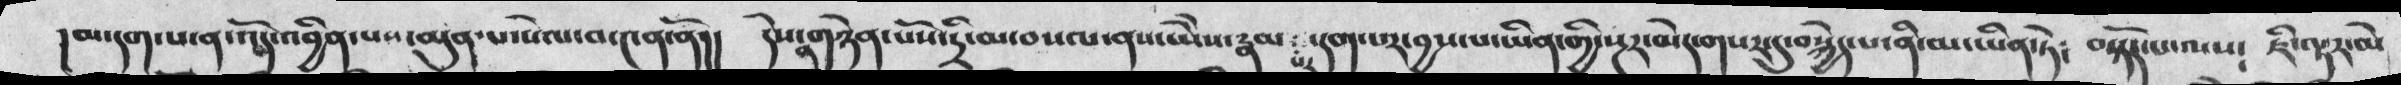།མ་དག་པ་ན་འོད་འབྱིན་པས་མུན་པ་སེལ་བ་༤ན་ནོ།།  དེས་ན་གཉེན་པོས་དྲི་མ་བསལ་ནས་ཡེེས་རྣམ་པར་དག་པར་བྱས་པ་ཡིན་གྱི་སྔར་མེད་གསར་དུ་བསྐྱེད་པ་ནི་མ་ཡིན་ཏེ༴  བསྟོད་པ་ལ༴    ཇི་ལྟར་མེ
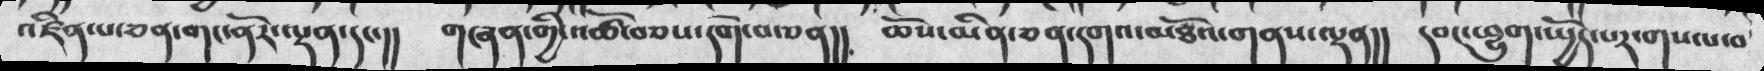འཛིན་པ་ཅན་གང་ནོར་ལྡན་དང་།། གཞན་གྱི་འཚོ་བཅས་དགེ་བ་ཅན།། ཆོས་མིན་ཅན་དགའ་མཐོའ་གནས་ལྡན།། དབང་ཕྱུག་སྤྱོད་པར་གསལ་བ
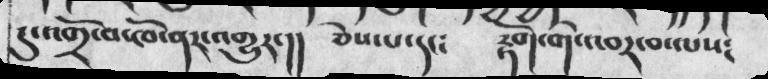དུ་འགྲོ་བ་ཁོ་ནར་འགྱུར་།། ཅེས་པ་དང༴ རྟོག་གེ་འབར་བ་ལས༴
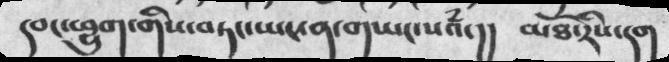དབང་ཕྱུག་གིས་བཏང་ཡང་ན་གཡང་སའཾ་།། མཐོ་རིས་དག
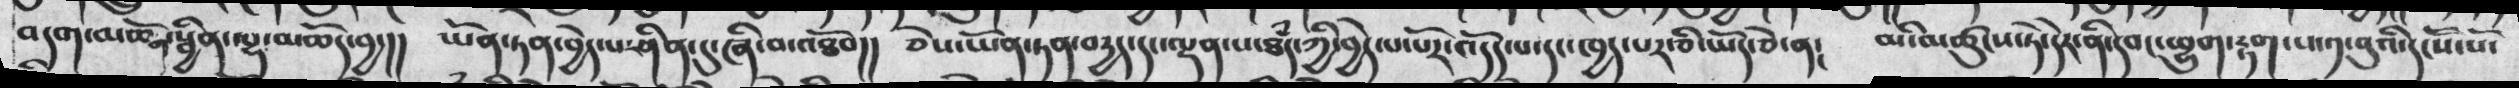བདག་མཆོག་སྦྱིན་ལྷ་མཆོད་བྱ་།།   ཡོན་ཏན་བྱེད་པ་ཤིན་དུ་ཞི་བ་འཐོབ།།   ཅེས་ཡོན་ཏན་བདྱད་དང་ལྡན་པ་ཐཾད་ཀྱི་བྱེད་པོར་འདོད་པ་དང་ཁྱད་པར་ཅི་ཡོད་ཅེ་ན༴   མི་མཚུངས་ཏེ་དེར་ནི་དབང་ཕྱུག་རྟག་པ་༡་བུའི་དངོས་པོ་
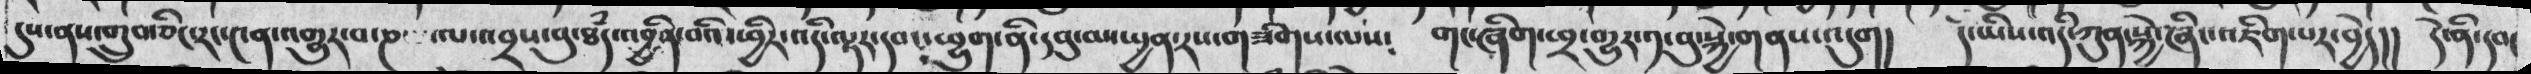དུས་ནས་གྲུབ་ཅིང་རང་༤ན་འགྱུར་བ་ཎ ་ལ་འབྲས་བུ་ཐཾད་འབྱིན་བའི་ཕྱིར་འདི་ལྟར་དབང་ཕྱུག་ནི་དབུ་མ་སྤྱན་རས་གཟིགས་ལས༴ གང་ཞིག་ཕྲ་གྱུར་༡་བུ་སྐྱེ་གནས་འདུག། དེ་ཡིས་འདི་ཀུན་སྐྱེ་ཞིང་འཇིག་པར་བྱེད།། དེ་ནི་དབང
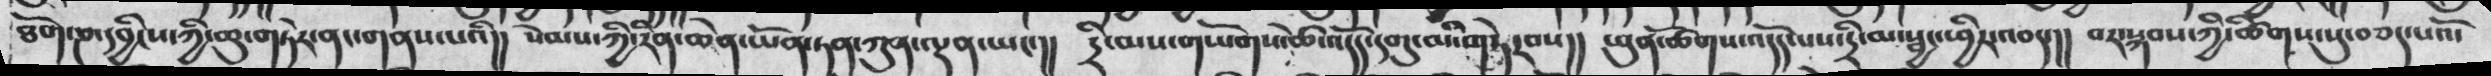ཐོག་ཎ་དབྱིངས་ཀྱི་ཆུ་གཏེར་ནང་གནས་པའི།།  སེམས་ཀྱི་རིན་ཆེན་ཡོན་ཏན་ཀུན་ལྡན་ཡང་།།  དྲི་མས་གཡོགས་ཚེ་འདོད་དགུ་ལ་གཏེརབས།།  ཕུན་ཚོགས་འདོད་པས་དྲི་མ་སྦྱང་ཕྱིར་འབར་།།  བར་སྐབས་ཀྱི་ཚིགས་སུ་བཅད་པའོ་
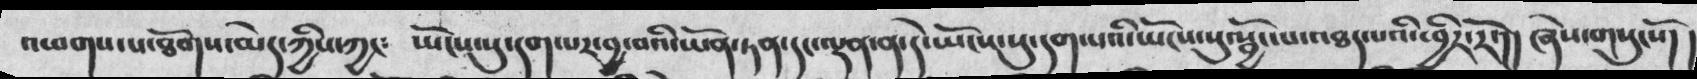འཕགས་པ་ཐོགས་མེད་ཀྱིས་ཀྱང༴   ཡོངས་སུ་དག་པར་བྱ་བའི་ཡོན་ཏན་དང་ལྡན་དེ་ཡོངས་སུ་དག་པའི་ཡོངས་སུ་སྦྱོང་པ་འཐད་པའི་ཕྱིར་རོ་།།  ཞེས་གསུངསོ།།
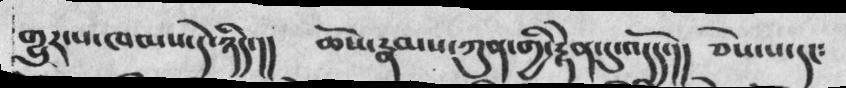གྱུར་པ་ཁམས་དེ་ཉིད་།། ཆོས་རྣམས་ཀུན་གྱི་རྟེན་དུ་འདོད་།། ཅེས་པ་དང༴
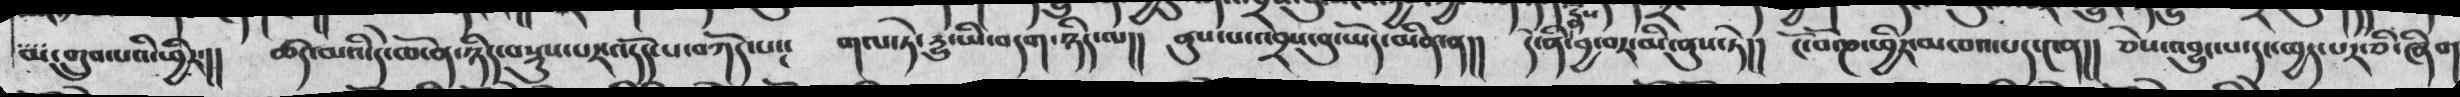མ་གྲུབ་པའི་ཕྱིར་།།  ཚད་མའི་དེ་ཁོ་ན་ཉིད་བསྡུས་པར་འདོད་པ་བཀོད་པ་༴    གལ་ཏེ་རྱུ་ཡི་བདག་ཉིད་ལ།།  ནུས་པ་འབྲས་བུ་ཡོད་མིན་ན།།   དེ་ནི་བྱ་བར་མི་ནུས་ཏེ།།   ངོ་བོ་ཎ་ཕྱིར་མཁའ་པད་༤ན།།   ཅེས་འབྱུང་པ་དང་ཁྱད་པར་ཅི་ཞིག་
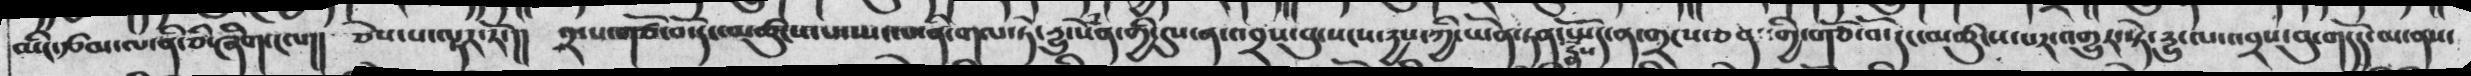མིང་རྩམ་ལ་ནི་ཅི་ཞིག་ངལ།།  ཅེས་པ་ལྟར་རོ་།།   ༢་པ་གཙོ་བོ་དང་མཚུངས་པ་ལ་༤བ་ནི་གལ་ཏེ་རྱུ་སེཾན་གྱི་དུས་ན་འབྲས་བུ་སངས་རྱས་ཀྱི་ཡོན་ཏན་རྣཾས་ཡོད་ན་གྲངས་ཅན་གྱི་གཙོ་བོ་དང་མཚུངས་པར་འགྱུར་སྟེ་རྱུ་ལ་འབྲས་བུ་གདོད་མ་ནས་
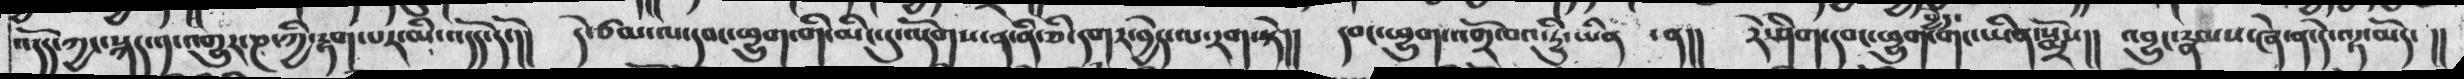འདོད་ཀྱང་སྐད་༡་འགྱུར་ཎ་ཀྱི་རྟག་པར་མི་འདོད་དོ།།  དེ་ཙམ་ལ་དབང་ཕྱུག་གི་མིང་དུ་འདོགས་ན་ནི་ཅི་དགར་བྱེད་ལ་རག་སྟེ།།   དབང་ཕྱུག་འགྲོ་བའི་རྱུ་ཡིན་ན།།   རེ་ཤིག་དབང་ཕྱུག་གང་ཡིན་སྨོས།།  འབྱུང་རྣམས་ཞེ་ན་དེ་ལྟ་མོད་།།
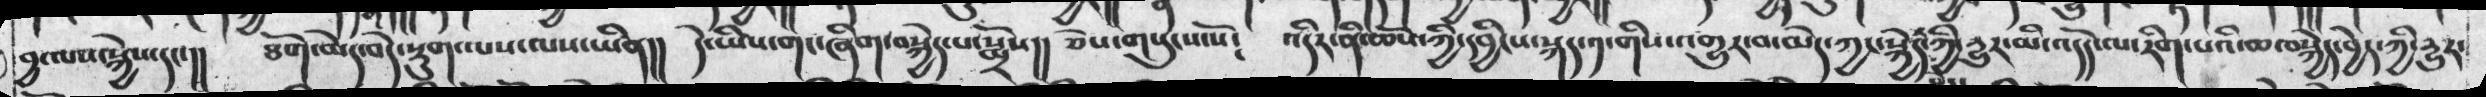བྱ་ལས་སྐྱེས་དང་།།   ཐོག་མེད་བདེ་སྡུག་ལས་ལས་ཡིན།    དེ་ཡིས་གང་ཞིག་བསྐྱེད་པ་སྨྲོས།།  ཅེས་གསུངས་སོ༴   འདིར་ནི་ཆོས་ཀྱི་དབྱིངས་སྐད་༡་གིས་འགྱུར་བ་མེད་ཀྱང་སྐྱེད་ཀྱི་རྱུར་མི་འདོད་ལ་རིག་པའི་ཆ་བསྐྱེད་བྱེད་ཀྱི་རྱུར་
